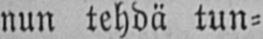nun tehdä tun-
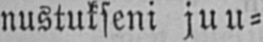nustukseni juu-
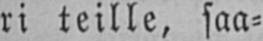ri teille, saa-
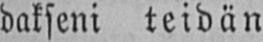dakseni teidän
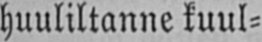huuliltanne kuul-
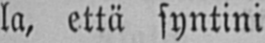la, että syntini
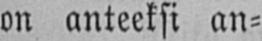on anteeksi an-
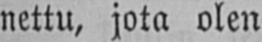nettu, jota olen
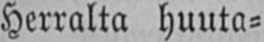Herralta huuta-
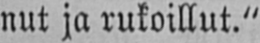nut ja rukoillut."
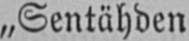„Sentähden
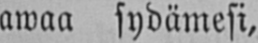awaa sydämesi,
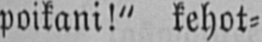poikani!" kehot-
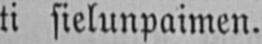ti sielunpaimen.
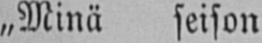„Minä seison
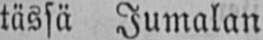tässä Jumalan
